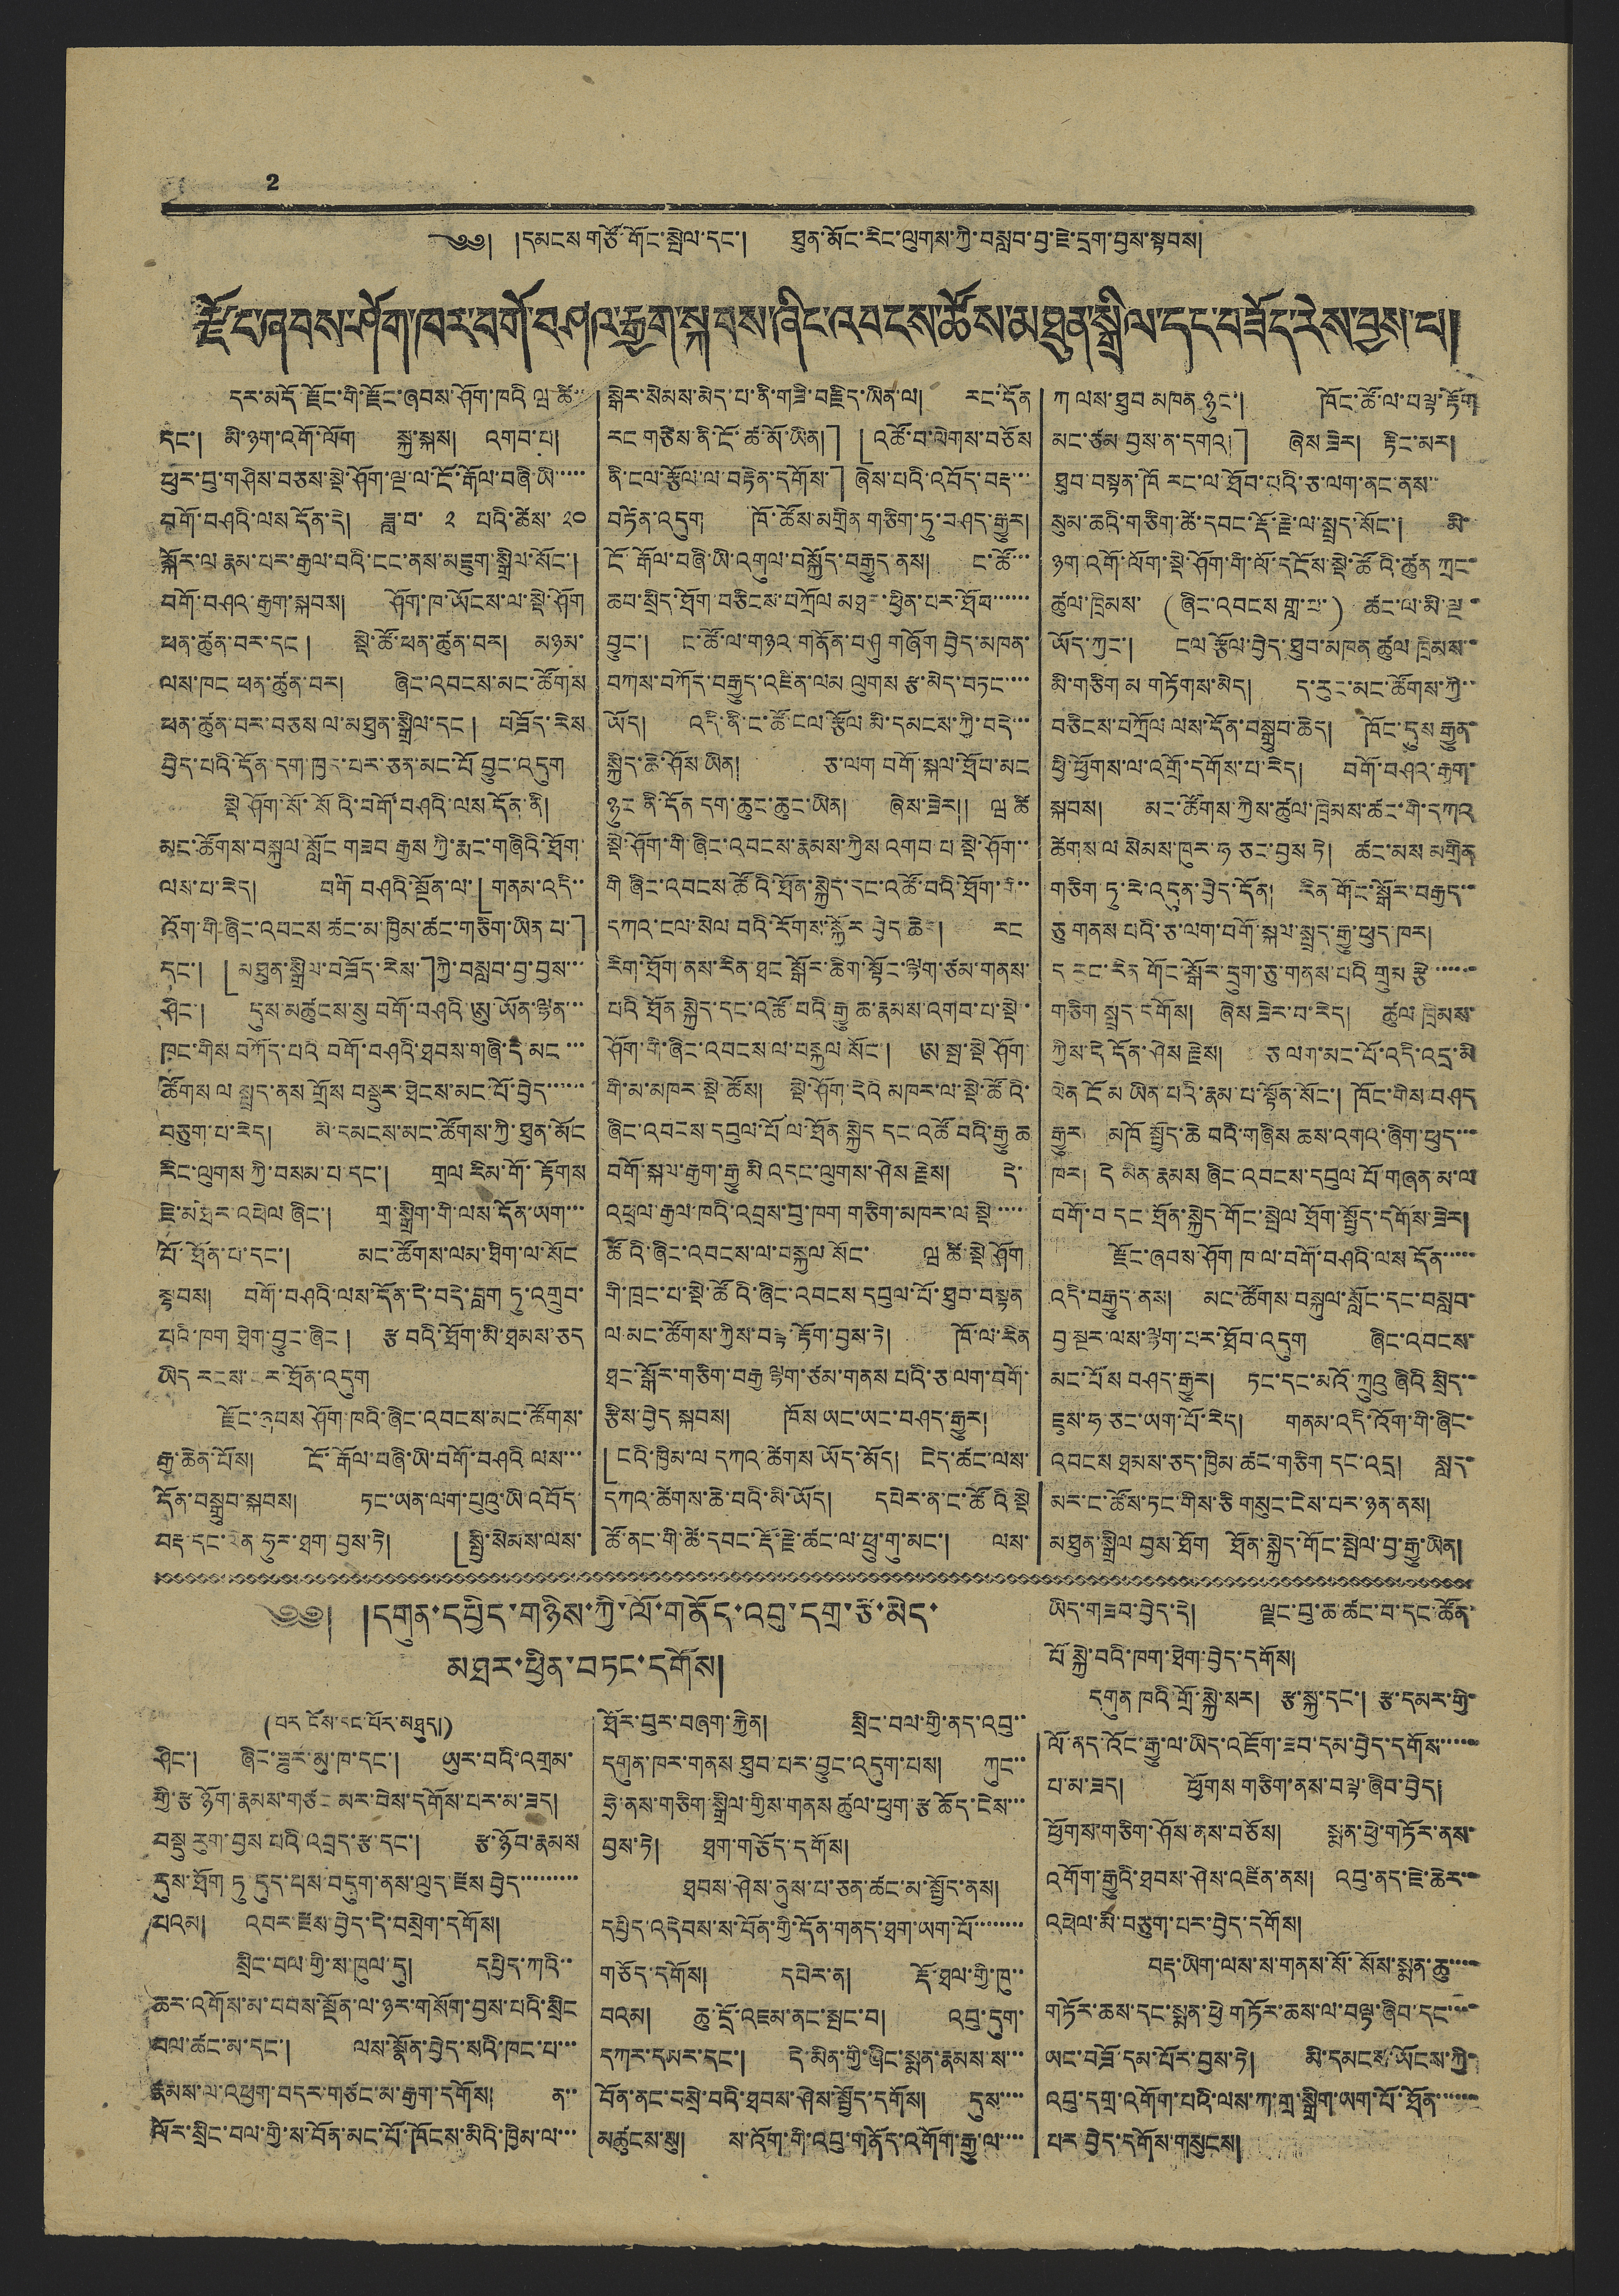2
༄༅། །དམངས་གཙོ་གོང་སྤེལ་དང་། ཐུན་མོང་རིང་ལུགས་ཀྱི་བསླབ་བྱ་ཇེ་དྲག་བྱས་སྟབས།
རྫོང་ཞབས་ཤོག་ཁར་བགོ་བཤའ་རྒྱག་སྐབས་ཞིང་འབངས་ཚོས་མཐུན་སྒྲིལ་དང་བཟོད་རེས་བྱས་པ།
དར་མདོ་རྫོང་གི་རྫོང་ཞབས་ཤོག་ཁའི་ཝ ཚི་་
དང་། མི་ཉག་འགོ་ལོག སྐྱ་སྐས། འགབ་པ།
ཕུར་བུ་གཤིས་བཅས་སྡེ་ཤོག་ལྔ་ལ་ངོ་རྒོལ་བཞི་ཡི་་་་་
བགོ་བཤའི་ལས དོན་དེ། ཟླ་བ་ ༢ པའི་ཚེས་ ༢༠
སྐོར་ལ རྣམ་པར་རྒྱལ་བའི་ངང་ནས་མཇུག་སྒྲིལ་སོང་།
བགོ་བཤའ་རྒྱག་སྐབས། ཤོག་ཁ་ཡོངས་སྡེ་ཤོག
ཕན་ཚུན་བར་དང་། སྡེ་ཚོ་ཕན་ཚུན་བར། མཉམ་
ལས་ཁང ཕན་ཚུན་བར། ཞིང་འབངས་མང་ཚོགས
ཕན་ཚུན་བར་བཅས ལ་མཐུན་སྒྲིལ་དང ། བཟོད་རེས
བྱེད་པའི་དོན་དག་ཁྱད་པར་ཅན་མང་པོ བྱུང་འདུག
སྡེ ཤོག་སོ་སོའི་བགོ་བཤའི་ལས དོན་ནི།
མང་ཚོགས་བསྐུལ་སློང་གཟབ རྒྱས ཀྱི་རྨང་གཞིའི་ཐོག་
ལས་པ་རེད། བགོ བཤའི་སྔོན་ལ་「གནམ་འདི་་
འོག་གི་ཞིང་འབངས་ཚང་མ་ཁྱིམ་ཚང་གཅིག་ཡིན་པ་」
དང་། 「མཐུན་སྒྲིལ་བཟོད་རེས་」ཀྱི་བསླབ་བྱ་བྱས་་་
ཤིང་། དུས་མཚུངས་སུ བགོ་བཤའི་ཨུ་ཡོན་ལྷན་་་
ཁང་གིས བཀོད་པའི བགོ་བཤའི་ཐབས་གཞི་དེ་མང་་་
ཚོགས ལ སྤྲད་ནས གྲོས བསྡུར་ཐེངས་མང་པོ་བྱེད་་་་་་
བཅུག་པ་རེད། མི་དམངས་མང་ཚོགས་ཀྱི་ཐུན་མོང
རིང་ལུགས ཀྱི་བསམ་པ་དང་། གྲལ་རིམ་གོ་རྟོགས
ཇེ་མཐོར་འཕེལ ཞིང་། གྲ་སྒྲིག་གི་ལས་དོན་ཡག་་་
པོ་ཐོན་པ་དང་། མང་ཚོགས་ལམ་ཐིག་ལ་སོང
སྟབས། བགོ་བཤའི་ལས་དོན་དེ་བདེ་བླག ཏུ་འགྲུབ་
པའི་ཁག ཐེག་བྱུང་ཞིང་། རྩ བའི་ཐོག་མི་ཐམས་ཅད
ཡིད རངས་པར་ཐོན་འདུག
རྫོང་ཞབས ཤོག་ཁའི་ཞིང་འབངས་མང་ཚོགས་
རྒྱ་ཆེན་པོས། ངོ་རྒོལ་བཞི་ཡི་བགོ་བཤའི་ལས་་་
དོན་བསྒྲུབ་སྐབས། ཏང་ཡན་ལག་པུའུ་ཡི་འབོད་
བརྡ་དང་ལེན་ཧུར་ཐག་བྱས་ཏེ། 「སྤྱི་སེམས་ལས་
སྒེར་སེམས་མེད་པ་ནི་གཟི་བརྗིད་ཡིན་ལ། རང་དོན
རང་གཅེས་ནི་ངོ་ཚ་མོ་ཡིན།」「འཚོ་བ་ལེགས་བཅོས
ནི་ངལ་རྩོལ་ལ་བརྟེན་དགོས་」ཞེས་པའི་འབོད་བརྡ་་་
བཏོན་འདུག ཁོ་ཚོས་མགྲིན་གཅིག་ཏུ་བཤད་རྒྱུར།
ངོ་རྒོལ་བཞི་ཡི་འགུལ་བསྐྱོད་བརྒྱུད་ནས། ང་ཚོ་་་
ཆབ་སྲིད་ཐོག་བཅིངས་བཀྲོལ་མཐར་ཕྱིན་པར་ཐོབ་་་་་་
བྱུང་། ང་ཚོ་ལ་གཉའ་གནོན་བཤུ གཞོག བྱེད་མཁན་
བཀས་བཀོད་བརྒྱུད་འཛིན་ལམ ལུགས རྩ་མེད་བཏང་་་་
ཡོད། འདི་ནི་ང་ཚོ་ངལ་རྩོལ མི་དམངས་ཀྱི་བདེ་་་
སྐྱིད་ཆེ་ཤོས་ཡིན། ཅ་ལག བགོ་སྐལ་ཐོབ་མང
ཉུང་ནི་དོན དག་ཆུང་ཆུང་ཡིན། ཞེས་ཟེར༎ ཝ ཚི་
སྡེ་ཤོག་གི་ཞིང་འབངས་རྣམས་ཀྱིས འགབ པ སྡེ་ཤོག་་
གི ཞིང་འབངས་ཚོའི་ཐོན་སྐྱེད་དང་འཚོ་བའི་ཐོག་གི་་
དཀའ་ངལ་སེལ བའི་རོགས་སྐྱོར་བྱེད་ཆེར། རང
རིག་ཐོག་ནས་རིན་ཐང་སྒོར་ཆིག་སྟོང་ལྷག་ཙམ་གནས་
པའི ཐོན སྐྱེད་དང་འཚོ་བའི་རྒྱུ ཆ་རྣམས་འགབ་པ་སྡེ་
ཤོག་གི་ཞིང་འབངས་ལ་བསྐྱལ སོང་། ཨ་སྤ་སྡེ ཤོག་
གི་མ་མཁར་སྡེ་ཚོས། སྡེ་ཤོག་དེའི་མཁར་ལ་སྡེ་ཚོའི་
ཞིང་འབངས་དབུལ་པོ ལ་ཐོན་སྐྱེད དང་འཚོ་བའི་རྒྱུ ཆ་
བགོ་སྐལ་རྒྱག་རྒྱུ མི འདང་ལུགས་ཤེས རྗེས། དེ་
འཕྲལ་རྒྱལ་ཁའི་འབྲས་བུ་ཁག གཅིག་མཁར་ལ་སྡེ་་་་
ཚོའི་ཞིང་འབངས་ལ་བསྐྱལ སོང་ ཝ ཚི་སྡེ ཤོག
གི་ཁྲང་པ་སྡེ་ཚོའི་ཞིང་འབངས དབུལ་པོ་ཐུབ་བསྟན
ལ་མང་ཚོགས་ཀྱིས་བལྟ་རྟོག་བྱས་ཏེ། ཁོ་ལ་རིན
ཐང་སྒོར་གཅིག་བརྒྱ ལྷག་ཙམ་གནས པའི་ཅ་ལག་བགོ་
རྩིས་བྱེད སྐབས། ཁོས ཡང་ཡང་བཤད་རྒྱུར།
「ངའི་ཁྱིམ་ལ དཀའ་ཚེགས ཡོད་མོད། ངེད་ཚང་ལས་
དཀའ་ཚེགས་ཆེ་བའི་མི་ཡོད། དཔེར་ན་ང་ཚོའི སྡེ
ཚོ་ནང་གི་ཚེ་དབང་རྡོ་རྗེ་ཚང་ལ་ཕྲུ་གུ་མང་། ལས་
ཀ ལས་ཐུབ མཁན ཉུང་། ཁོང་ཚོ་ལ་བལྟ་རྟོག
མང་ཙམ བྱས་ན་དགའ།」 ཞེས་ཟེར། རྟིང་མར།
ཐུབ་བསྟན་ཁོ རང་ལ་ཐོབ་པའི་ཅ་ལག་ནང་ནས་་
སུམ་ཆའི་གཅིག་ཚེ་དབང་རྡོ་རྗེ་ལ་སྤྲད་སོང་། མི་
ཉག་འགོ་ལོག་སྡེ་ཤོག་གི་ལོ་དངོས་སྡེ་ཚོའི་ཚུན་ཀྲང་
ཚུལ་ཁྲིམས་(ཞིང་འབངས་གླ་པ་)ཚང་ལ་མི་ལྔ་
ཡོད་ཀྱང་། ངལ་རྩོལ་བྱེད་ཐུབ་མཁན ཚུལ ཁྲིམས་
མི་གཅིག མ གཏོགས་མེད། ད་རུང་མང་ཚོགས་ཀྱི་་
བཅིངས་བཀྲོལ་ལས་དོན་བསྒྲུབ་ཆེད། ཁོང་དུས རྒྱུན་
ཕྱི་ཕྱོགས་ལ་འགྲོ་དགོས་པ་རེད། བགོ་བཤའ་རྒྱག་
སྐབས། མང་ཚོགས་ཀྱིས་ཚུལ་ཁྲིམས་ཚང་གི་དཀའ
ཚེགས་ལ སེམས་ཁུར་ཧ ཅང་བྱས ཏེ། ཚང་མས མགྲིན
གཅིག་ཏུ་རེ་འདུན་བྱེད་དོན། རིན་གོང་སྒོར་བརྒྱད་་
ཅུ གནས པའི་ཅ་ལག་བགོ་སྐལ་སྤྲད་རྒྱུ་ཕུད་ཁར།
ད རུང་རིན གོང་སྒོར་དྲུག་ཅུ་གནས་པའི གྲུམ རྩེ་་་་་་
གཅིག སྤྲད་དགོས། ཞེས་ཟེར་བ་རེད། ཚུལ་ཁྲིམས་
ཀྱིས་དེ དོན་ཤེས རྗེས། ཅ ལག་མང་བོ་འདི་འདྲ་མི
ལེན ངོ མ ཡིན་པའི་རྣམ་པ་སྟོན་སོང་། ཁོང་གིས་བཤད
རྒྱུར། མཁོ སྤྱོད་ཆེ བའི་གཞིས ཆས་འགའ་ཞིག་ཕུད་་་
ཁར། དེ མིན་རྣམས ཞིང་འབངས་དབུལ་པོ་གཞན་མ་ལ
བགོ་བ དང ཐོན་སྐྱེད་གོང་སྤེལ ཐོག་སྤྱོད་དགོས་ཟེར།
རྫོང་ཞབས་ཤོག་ཁ་ལ་བགོ་བཤའི་ལས དོན་་་་་
འདི་བརྒྱུད་ནས། མང་ཚོགས་བསྐུལ་སློང་དང་བསླབ་
བྱ་སྔར་ལས་ལྷག་པར་ཐོབ་འདུག ཞིང་འབངས་
མང་པོས བཤད་རྒྱུར། ཏང་དང་མའོ་ཀྲུའུ ཞིའི སྲིད་་
ཇུས་ཧ་ཅང་ཡག་པོ་རེད། གནམ་འདི་འོག་གི་ཞིང་
འབངས ཐམས་ཅད་ཁྱིམ་ཚང་གཅིག དང་འདྲ། སླད་
མར་ང་ཚོས་ཏང་གིས་ཅི གསུང་ངེས་པར་ཉན་ནས།
མཐུན་སྒྲིལ བྱས་ཐོག ཐོན་སྐྱེད་གོང་སྤེལ་བྱ་རྒྱུ་ཡིན།
༄༅། །དགུན་དཔྱིད་གཉིས་ཀྱི་ལོ་གནོད་འབུ་དགྲ་རྩ་མེད་
མཐར་ཕྱིན་བཏང་དགོས།
(བར་ངོས་དང་པོར་མཐུད།)
ཤིང་། ཞིང་ཟུར་མུ་ཁ་དང་། ཡུར་བའི་འགྲམ་
གྱི་རྩ ཉོག་རྣམས་གཙང མར་བེས་དགོས་པར་མ་ཟད།
བསྡུ རུག་བྱས་པའི་འབྲད་རྩ་དང་། རྩ་ཉོབ་རྣམས
དུས་ཐོག ཏུ་དུད་པས་བདུག་ནས་ལུད་རྫས་བྱེད་་་་་་་་་
པའམ། འབར་རྫས་བྱེད་དེ་བསྲེག་དགོས།
སྲིང་བལ་གྱི་ས་ཁུལ་དུ། དཔྱིད་ཀའི་་
ཆར་འགོས་མ་བབས་སྔོན་ལ་ཉར་གསོག་བྱས་པའི་སྲིང
བལ་ཚང་མ་དང་། ལས་སྣོན་བྱེད་སའི་ཁང་པ་་་
རྣམས་ལ་འཕྱག་བདར་གཙང་མ་རྒྱག་དགོས། ན་་
ལོར་སྲིང་བལ་གྱི་ས་བོན་མང་པོ་ཁོངས་མིའི་ཁྱིམ་ལ་་་
ཐོར་བུར་བཞག་རྐྱེན། སྲིང་བལ་གྱི་ནད་འབུ་་
དགུན་ཁར་གནས ཐུབ་པར་བྱུང་འདུག་པས། ཀུང་་
ཧྲེ་ནས་གཅིག་སྒྲིལ་གྱིས་གནས ཚུལ་ཕུག་རྩ ཆོད་ངེས་་་
བྱས་ཏེ། ཐག་གཅོད་དགོས།
ཐབས་ཤེས་ནུས་པ་ཅན་ཚང་མ་སྤྱོད་ནས།
དཔྱིད་འདེབས་ས་བོན་གྱི་དོན་གནད་ཐག་ཡག་པོ་་་་་་་་
གཅོད་དགོས། དཔེར་ན། རྡོ་ཐལ་གྱི་ཁུ་་
བའམ། ཆུ་དྲོ་འཇམ་ནང་སྤང་བ། འབུ་དུག་
དཀར་དམར་དང་། དེ་མིན་གྱི་ཞིང་སྨན་རྣམས་ས་་་
བོན་ནང་བསྲེ་བའི་ཐབས་ཤེས་སྤྱོད་དགོས། དུས་་་་
མཚུངས་སུ། ས་འོག་གི་འབུ་གནོད་འགོག་རྒྱུ་ལ་་་་
ཡིད་གཟབ་བྱེད་དེ། ལྗང་བུ་ཆ་ཚང་བ་དང་ཚོན་
པོ་སྐྱེ་བའི་ཁག་ཐེག་བྱེད་དགོས།
དགུན་ཁའི་གྲོ་སྐྱེ་སར། རྩ་སྐྱ་དང་། རྩ་དམར་གྱི་
ལོ་ནད་འོང་རྒྱུ་ལ་ཡིད་འཇོག་ཟབ་དམ་བྱེད་དགོས་་་་་
པ་མ་ཟད། ཕྱོགས གཅིག་ནས་བལྟ་ཞིབ་བྱེད།
ཕྱོགས་གཅིག་ཤོས་ནས་བཅོས། སྨན་ཕྱེ་གཏོར་ནས་
འགོག་རྒྱུའི་ཐབས་ཤེས་འཛིན་ནས། འབུ་ནད་ཇེ་ཆེར་་
འཕེལ་མི་བཅུག་པར་བྱེད་དགོས།
བརྡ་ཡིག་ལས་ས་གནས་སོ་སོས་སྨན་ཆུ་་་་
གཏོར་ཆས་དང་སྨན་ཕྱེ་གཏོར་ཆས་ལ་བལྟ་ཞིབ་དང་་་་
ཡང་བཟོ་དམ་པོར་བྱས་ཏེ། མི་དམངས་ཡོངས་ཀྱི་
འབུ་དགྲ་འགོག་པའི་ལས་ཀ་གྲ་སྒྲིག་ཡག་པོ་ཐོན་་་་་་་
པར་བྱེད་དགོས་གསུངས།
